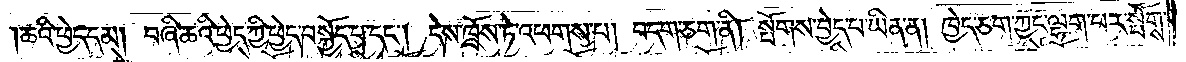ཆའི་ཕྱེད་དམ། བཞི་ཆའི་ཕྱེད་ཀྱི་ཕྱེད་བསྐྱོད་པ་དང༌། དེས་ཁྲོས་ཏེ་འཕགས་པ། བདག་ཅག་ནི། སྤོགས་བྱེད་པ་ཡིན་ན། ཁྱེད་ཅག་ཀྱང་ལྷག་པར་སྤོགས་
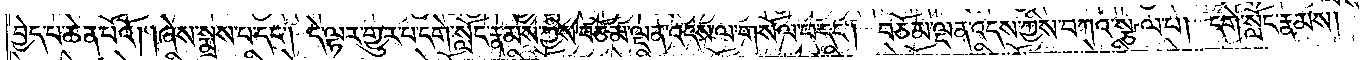བྱེད་པ་ཆེན་པོའོ། །ཞེས་སྨྲས་པ་དང༌། དེ་ལྟར་གྱུར་པ་དགེ་སློང་རྣམས་ཀྱིས་བཅོམ་ལྡན་འདས་ལ་གསོལ་པ་དང༌། བཅོམ་ལྡན་འདས་ཀྱིས་བཀའ་སྩལ་པ། དགེ་སློང་རྣམས།
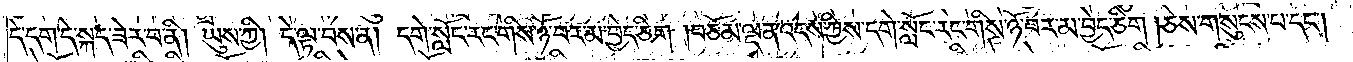དེ་དག་དེ་སྐད་ཟེར་བ་ནི། ཡུས་ཀྱི། དེ་ལྟ་བས་ན། དགེ་སློང་རང་གིས་ཉོ་བར་མ་བྱེད་ཅིག །བཅོམ་ལྡན་འདས་ཀྱིས་དགེ་སློང་རང་གིས་ཉོ་བར་མ་བྱེད་ཅིག །ཅེས་གསུངས་པ་དང༌།
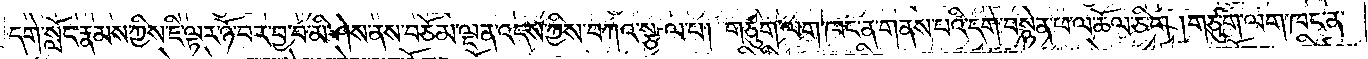དགེ་སློང་རྣམས་ཀྱིས་ཇི་ལྟར་ཉོ་བར་བྱ་བ་མི་ཤེས་ནས་བཅོམ་ལྡན་འདས་ཀྱིས་བཀའ་སྩལ་པ། གཙུག་ལག་ཁང་ན་གནས་པའི་དགེ་བསྙེན་ཕ་ལ་ཆོལ་ཅིག །གཙུག་ལག་ཁང་ན་
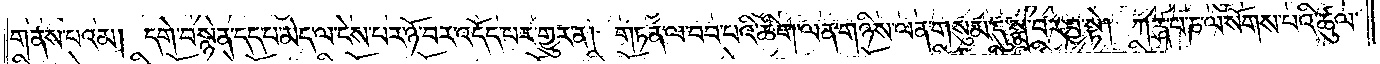གནས་པའམ། དགེ་བསྙེན་དང་པ་མེད་ལ་ངེས་པར་ཉོ་བར་འདོད་པར་གྱུར་ན། གཏན་ལ་བབ་པའི་ཚིག་ལན་གཉིས་ལན་གསུམ་དུ་སྨྲ་བར་བྱ་སྟེ། ཀཪྴ་པ་ཎ་ལ་སོགས་པའི་ཚུལ་
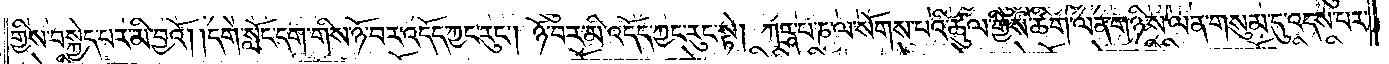གྱིས་བསྐྱེད་པར་མི་བྱའོ། །དགེ་སློང་དག་གིས་ཉོ་བར་འདོད་ཀྱང་རུང༌། ཉོ་བར་མི་འདོད་ཀྱང་རུང་སྟེ། ཀཪྴ་པ་ཎ་ལ་སོགས་པའི་ཚུལ་གྱིས་ཚིག་ལན་གཉིས་ལན་གསུམ་དུ་འདས་པར་
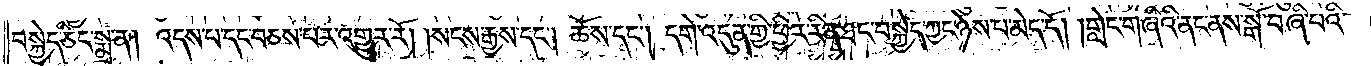བསྐྱེད་ཅིང་སྨྲ་ན། འདས་པ་དང་བཅས་པར་འགྱུར་རོ། །སངས་རྒྱས་དང༌། ཆོས་དང༌། དགེ་འདུན་གྱི་ཕྱིར་རིན་ཐང་བསྐྱེད་ཀྱང་ཉེས་པ་མེད་དོ། །གླེང་གཞིའི་ནང་ནས་སྒོ་བཞི་པའི་
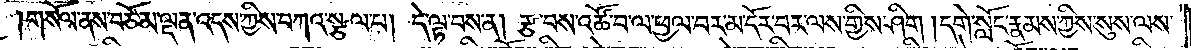གསོལ་ནས་བཅོམ་ལྡན་འདས་ཀྱིས་བཀའ་སྩལ་པ། དེ་ལྟ་བས་ན། རྩ་བས་འཚོ་བ་ལ་ཕྱལ་བར་མ་དོར་བར་ལས་གྱིས་ཤིག །དགེ་སློང་རྣམས་ཀྱིས་སུས་ལས་
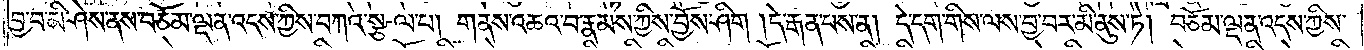བྱ་བ་མི་ཤེས་ནས་བཅོམ་ལྡན་འདས་ཀྱིས་བཀའ་སྩལ་པ། གནས་འཆའ་བ་རྣམས་ཀྱིས་བྱོས་ཤིག །དེ་རྒན་པས་ན། དེ་དག་གིས་ལས་བྱ་བར་མི་ནུས་ཏེ། བཅོམ་ལྡན་འདས་ཀྱིས་
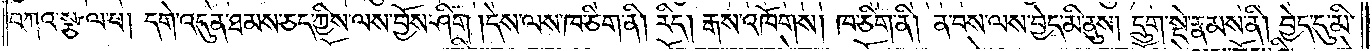བཀའ་སྩལ་པ། དགེ་འདུན་ཐམས་ཅད་ཀྱིས་ལས་བྱོས་ཤིག །དེས་ལས་ཁ་ཅིག་ནི། རིད། རྒས་འཁོགས། ཁ་ཅིག་ནི། ན་བས་ལས་བྱེད་མི་ནུས། དྲུག་སྡེ་རྣམས་ནི། བྱེད་དུ་མི་
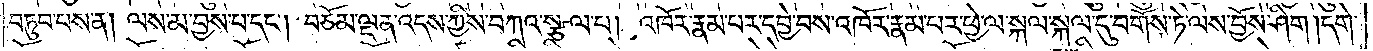བཏུབ་པས་ན། ལས་མ་བྱས་པ་དང༌། བཅོམ་ལྡན་འདས་ཀྱིས་བཀའ་སྩལ་པ། འཁོར་རྣམ་པར་དབྱེ་བས་འཁོར་རྣམ་པར་ཕྱེ་ལ་སྐལ་སྐལ་དུ་བགོས་ཏེ་ལས་བྱོས་ཤིག །དགེ་
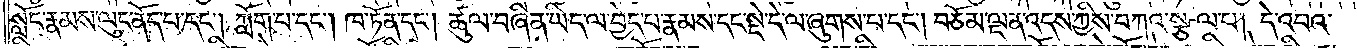སློང་རྣམས་ལུང་ནོད་པ་དང༌། ཀློག་པ་དང༌། ཁ་ཏོན་དང༌། ཚུལ་བཞིན་ཡིད་ལ་བྱེད་པ་རྣམས་དང་སྡེ་དེ་ལ་ཞུགས་པ་དང༌། བཅོམ་ལྡན་འདས་ཀྱིས་བཀའ་སྩལ་པ། དེ་འབའ་
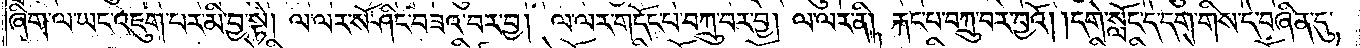ཞིག་ལ་ཡང་འཇུག་པར་མི་བྱ་སྟེ། ལ་ལར་སོ་ཤིང་བཟའ་བར་བྱ། ལ་ལར་གདོང་པ་བཀྲུ་བར་བྱ། ལ་ལར་ནི། རྐང་པ་བཀྲུ་བར་བྱའོ། །དགེ་སློང་དེ་དག་གིས་དེ་བཞིན་དུ་
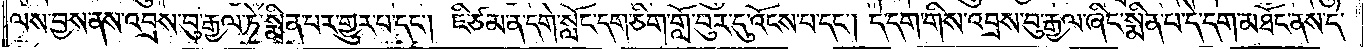ལས་བྱས་ནས་འབྲས་བུ་རྒྱལ་ཏེ་སྨིན་པར་གྱུར་པ་དང༌། ཇི་ཙམ་ན་དགེ་སློང་དག་ཅིག་གློ་བུར་དུ་འོངས་པ་དང༌། དེ་དག་གིས་འབྲས་བུ་རྒྱལ་ཞིང་སྨིན་པ་དེ་དག་མཐོང་ནས་དེ་
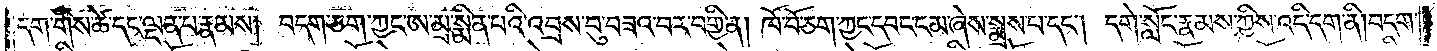དག་གིས་ཚེ་དང་ལྡན་པ་རྣམས། བདག་ཅག་ཀྱང་ཨ་མྲ་སྨིན་པའི་འབྲས་བུ་བཟའ་བར་བགྱི་ན། ཁོ་བོ་ཅག་ཀྱང་དབང་ངམ་ཞེས་སྨྲས་པ་དང༌། དགེ་སློང་རྣམས་ཀྱིས་འདི་དག་ནི། བདག་
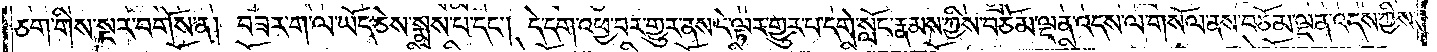ཅག་གིས་སྔར་བགོས་ན། བཟར་ག་ལ་ཡོད་ཅེས་སྨྲས་པ་དང༌། དེ་དག་འཕྱ་བར་གྱུར་ནས་དེ་ལྟར་གྱུར་པ་དགེ་སློང་རྣམས་ཀྱིས་བཅོམ་ལྡན་འདས་ལ་གསོལ་ནས་བཅོམ་ལྡན་འདས་ཀྱིས་
